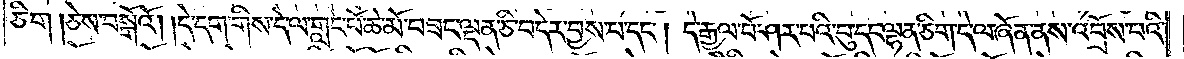ཅིག །ཅེས་བསྒོའོ། །དེ་དག་གིས་དེ་ལ་གླང་པོ་ཆེ་མོ་བཟང་ལྡན་ཅི་བདེར་བྱས་པ་དང༌། དེ་རྒྱལ་པོ་ཤར་བའི་བུ་དང་ལྷན་ཅིག་དེ་ལ་ཞོན་ནས་འབྲོས་པའི་
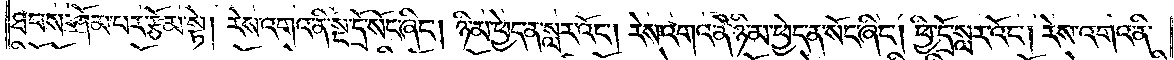ཐབས་ཤོམ་པར་རྩོམ་སྟེ། རེས་འགའ་ནི་སྔ་དྲོ་སོང་ཞིང༌། ཉི་མ་ཕྱེད་ན་སླར་འོང༌། རེས་འགའ་ནི་ཉི་མ་ཕྱེད་ན་སོང་ཞིང༌། ཕྱི་དྲོ་སླར་འོང༌། རེས་འགའ་ནི་
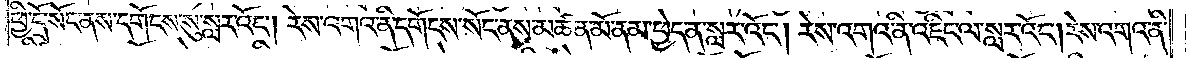ཕྱི་དྲོ་སོང་ནས་དགོངས་སུ་སླར་འོང༌། རེས་འགའ་ནི་དགོངས་སོང་ནས་མཚན་མོ་ནམ་ཕྱེད་ན་སླར་འོང༌། རེས་འགའ་ནི་འཇིང་ལ་སླར་འོང༌། རེས་འགའ་ནི་
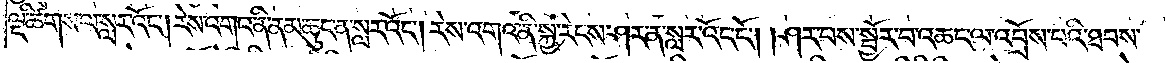ལྔ་ཚིགས་ལ་སླར་འོང༌། རེས་འགའ་ནི་མ་ཆུང་ན་སླར་འོང༌། རེས་འགའ་ནི་སྐྱ་རེངས་ཤར་ན་སླར་འོང་ངོ༌། །ཤར་པས་སྤྱོར་བ་འཆང་ལ་འབྲོས་པའི་ཐབས་
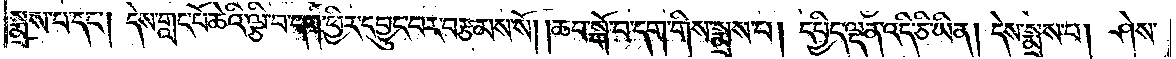སྨྲས་པ་དང༌། དེས་གླང་པོ་ཆེའི་ལྕི་བ་དག་ཕྱིར་དབྱུང་བར་བརྩམས་སོ། །ཆབ་སྒོ་བ་དག་གིས་སྨྲས་པ། དཔྱིད་ལྡན་འདི་ཅི་ཡིན། དེས་སྨྲས་པ། ཤེས་
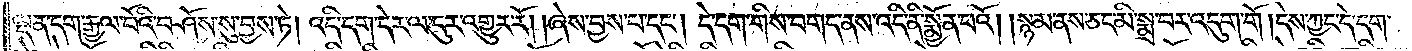ལྡན་དག་རྒྱལ་པོའི་བཤོས་སུ་བྱས་ཏེ། འདི་དག་དེར་ལ་དུར་འགྱུར་རོ། །ཞེས་བྱས་པ་དང༌། དེ་དག་གིས་བགད་ནས་འདི་ནི་སྨྱོན་པའོ། །སྙམ་ནས་ཅང་མི་སྨྲ་བར་འདུག་གོ །དེས་ཀྱང་དེ་དག་
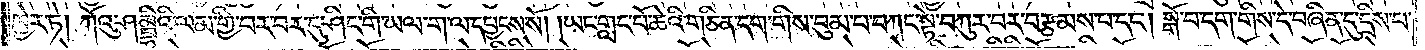ཁྱེར་ཏེ། ཀོའུ་ཤམྦྷིའི་ལམ་གྱི་བར་བར་དུ་ཤིང་གི་ཡལ་ག་ལ་དཔྱངས་སོ། །ཡང་གླང་པོ་ཆེའི་གཅིན་དག་གིས་བུམ་པ་བཀང་སྟེ་བཀུར་བར་བརྩམས་པ་དང༌། སྒོ་བ་དག་གིས་དེ་བཞིན་དུ་དྲིས་པ་
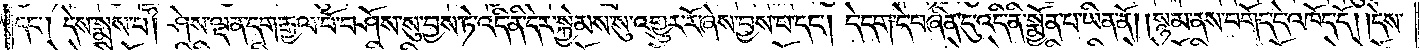དང༌། དེས་སྨྲས་པ། ཤེས་ལྡན་དག་རྒྱལ་པོ་བཤོས་སུ་བྱས་ཏེ་འདི་ནི་དེར་སྐྱེམས་སུ་འགྱུར་རོ་ཞེས་བྱས་པ་དང༌། དེ་དག་དེ་བཞིན་དུ་འདི་ནི་སྨྱོན་པ་ཡིན་ནོ། །སྙམ་ནས་བགོད་དེ་འཁོད་དོ། །དེས་
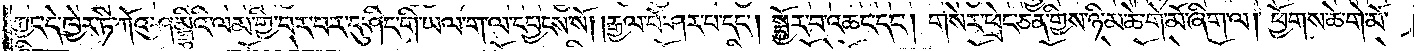ཀྱང་དེ་ཁྱེར་ཏེ་ཀོའུ་ཤམྦྷིའི་ལམ་གྱི་བར་བར་དུ་ཤིང་གི་ཡལ་ག་ལ་དཔྱངས་སོ། །རྒྱལ་པོ་ཤར་པ་དང༌། སྦྱོར་བ་འཆང་དང༌། གསེར་ཕྲེང་ཅན་གྱིས་ཉི་མ་ཆེ་གེ་མོ་ཞིག་ལ། ཕྱོགས་ཆེ་གེ་མོ་
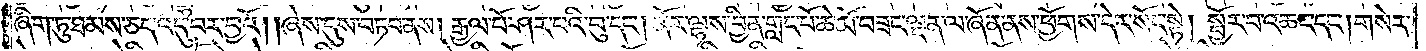ཞིག་ཏུ་ཐམས་ཅད་འདུ་བར་བྱའོ། །ཞེས་དུས་བཏབ་ནས། རྒྱལ་པོ་ཤར་པའི་བུ་དང༌། ནོར་ལྷས་བྱིན་གླང་པོ་ཆེ་མོ་བཟང་ལྡན་ལ་ཞོན་ནས་ཕྱོགས་དེར་སོང་སྟེ། སྦྱོར་བ་འཆང་དང༌། གསེར་
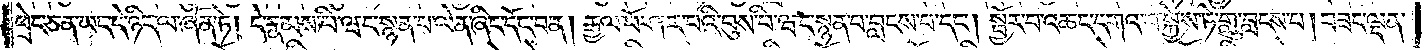ཕྲེང་ཅན་ཡང་དེ་ཉིད་ལ་ཞོན་ཏེ། དེ་རྣམས་པི་ཝང་སྙན་པ་ལེན་ཞིང་དོང་བ་ན། རྒྱལ་པོ་ཤར་པའི་བུས་པི་ཝང་སྙན་པ་བླངས་པ་དང༌། སྦྱོར་བ་འཆང་དགའ་བ་སྐྱེས་ཏེ་གླུ་བླངས་པ། བཟང་ལྡན་
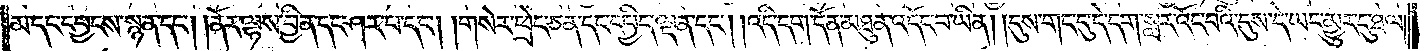མ་དང་དབྱངས་སྙན་དང༌། །ནོར་ལྷས་བྱིན་དང་ཤར་པ་དང༌། །གསེར་ཕྲེང་ཅན་དང་དཔྱིད་ལྡན་དང༌། །འདི་དག་དོན་མཐུན་འདོང་བ་ཡིན། །དུས་གང་དུ་དེ་དག་སླར་འོང་བའི་དུས་དེ་ཡང་མྱུར་དུ་ཐལ།
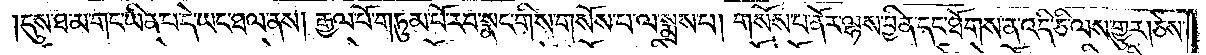དུས་ཐ་མ་གང་ཡིན་པ་དེ་ཡང་ཐལ་ནས། རྒྱལ་པོ་གཏུམ་པོ་རབ་སྣང་གིས་གསོས་པ་ལ་སྨྲས་པ། གསོས་པ་ནོར་ལྷས་བྱིན་དང་ཐོགས་ན་འདི་ཅི་ལས་གྱུར། ཅེས་
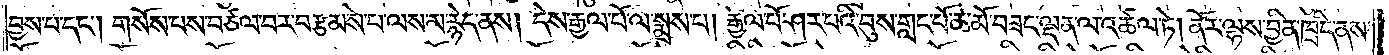བྱས་པ་དང༌། གསོས་པས་བཙལ་བར་བརྩམས་པ་ལས་མ་རྙེད་ནས། དེས་རྒྱལ་པོ་ལ་སྨྲས་པ། རྒྱལ་པོ་ཤར་པའི་བུས་གླང་པོ་ཆེ་མོ་བཟང་ལྡན་ལ་འཚལ་ཏེ། ནོར་ལྷས་བྱིན་ཁྲིད་ནས་
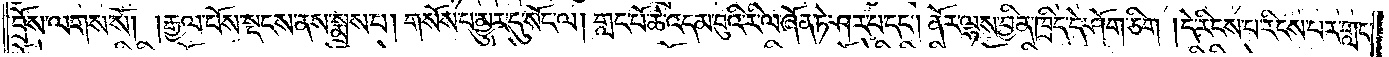བྲོས་ལགས་སོ། །རྒྱལ་པོས་སྡངས་ནས་སྨྲས་པ། གསོས་པ་མྱུར་དུ་སོང་ལ། གླང་པོ་ཆེ་འདམ་བུའི་རི་ལ་ཞོན་ཏེ་ཤར་པ་དང༌། ནོར་ལྷས་བྱིན་ཁྲིད་དེ་ཤོག་ཅིག །དེ་རིངས་པ་རིངས་པར་གླང་
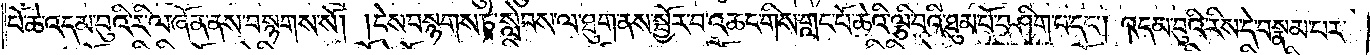པོ་ཆེ་འདམ་བུའི་རི་ལ་ཞོན་ནས་བསྙགས་སོ། །དེས་བསྙགས་ཏེ་སླེབས་ལ་ཐུག་ནས་སྦྱོར་བ་འཆང་གིས་གླང་པོ་ཆེའི་ལྕི་བའི་ཐུམ་པོ་བཤིག་པ་དང༌། འདམ་བུའི་རིས་དེ་བསྣམ་པར་
